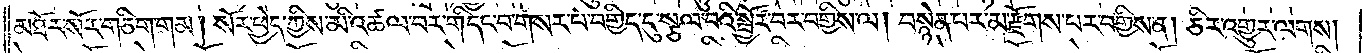མཐོར་སོར་གཅིག་གམ། སོར་ཕྱེད་ཀྱིས་མི་འཚལ་བར་གདིང་བ་གསར་པ་བགྱིད་དུ་སྩལ་བའི་སྦྱོར་བར་བགྱིས་ལ། བསྙེན་པར་མ་རྫོགས་པར་བགྱིས་ན། ཅིར་འགྱུར་ལགས།
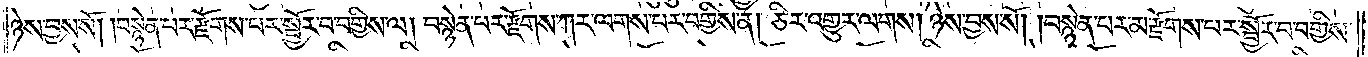ཉེས་བྱས་སོ། །བསྙེན་པར་རྫོགས་པར་སྦྱོར་བ་བགྱིས་ལ། བསྙེན་པར་རྫོགས་ཀར་ལགས་པར་བགྱིས་ན། ཅིར་འགྱུར་ལགས། ཉེས་བྱས་སོ། །བསྙེན་པར་མ་རྫོགས་པར་སྦྱོར་བ་བགྱིས་
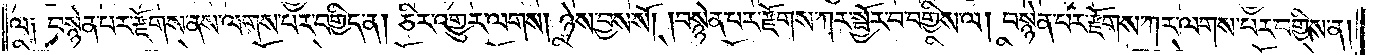ལ༑ བསྙེན་པར་རྫོགས་ནས་ལགས་པར་བགྱིད་ན། ཅིར་འགྱུར་ལགས། ཉེས་བྱས་སོ། །བསྙེན་པར་རྫོགས་ཀར་སྦྱོར་བ་བགྱིས་ལ། བསྙེན་པར་རྫོགས་ཀར་ལགས་པར་བགྱིས་ན།
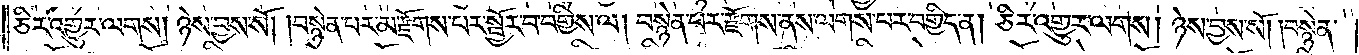ཅིར་འགྱུར་ལགས། ཉེས་བྱས་སོ། །བསྙེན་པར་མ་རྫོགས་པར་སྦྱོར་བ་བགྱིས་ལ། བསྙེན་པར་རྫོགས་ནས་ལགས་པར་བགྱིད་ན། ཅིར་འགྱུར་ལགས། ཉེས་བྱས་སོ། །བསྙེན་
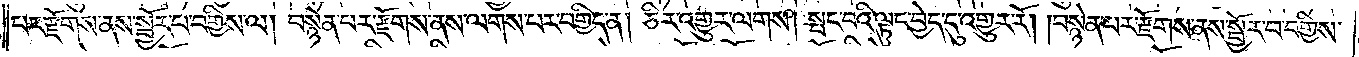པར་རྫོགས་ནས་སྦྱོར་པ་བགྱིས་ལ། བསྙེན་པར་རྫོགས་ནས་ལགས་པར་བགྱིད་ན། ཅིར་འགྱུར་ལགས། སྤང་བའི་ལྟུང་བྱེད་དུ་འགྱུར་རོ། །བསྙེན་པར་རྫོགས་ནས་སྦྱོར་བ་བགྱིས་
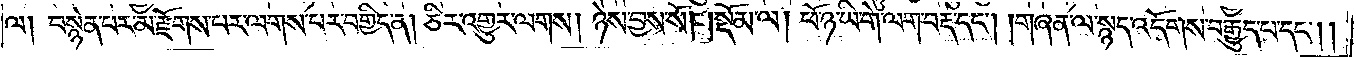ལ། བསྙེན་པར་མ་རྫོགས་པར་ལགས་པར་བགྱིད་ན། ཅིར་འགྱུར་ལགས། ཉེས་བྱས་སོ། །སྡོམ་ལ། ཕོ་ཉ་ཡི་གེ་ལག་བརྡ་དང༌། །གཞན་ལ་སྙད་འདོགས་བརྒྱུད་པ་དང༌། །
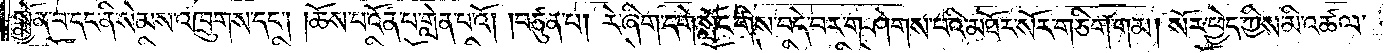སྨྱོན་པ་དང་ནི་སེམས་འཁྲུགས་དང༌། །ཆོས་པ་འོན་པ་གླེན་པའོ། །བཙུན་པ། རེ་ཞིག་དགེ་སློང་གིས་བདེ་བར་གཤེགས་པའི་མཐོར་སོར་གཅིག་གམ། སོར་ཕྱེད་ཀྱིས་མི་འཚལ་
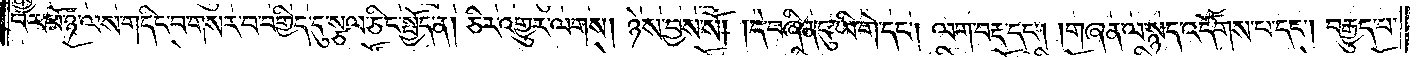པར་ཕོ་ཉ་ལས་གདིང་བ་གསར་པ་བགྱིད་དུ་སྩལ་ཅིང་སྤྱོད་ན། ཅིར་འགྱུར་ལགས། ཉེས་བྱས་སོ། །དེ་བཞིན་དུ་ཡི་གེ་དང༌། ལག་བརྡ་དང༌། །གཞན་ལ་སྙད་འདོགས་པ་དང༌། བརྒྱུད་པ་
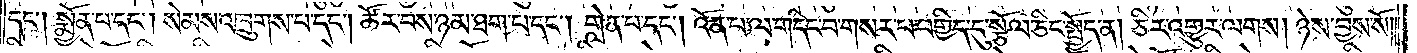དང༌། སྨྱོན་པ་དང༌། སེམས་འཁྲུགས་པ་དང༌། ཚོར་བས་ཉམ་ཐག་པ་དང༌། གླེན་པ་དང༌། འོན་པ་ལ་གདིང་པ་གསར་པ་བགྱིད་དུ་སྩོལ་ཅིང་སྤྱོད་ན། ཅིར་འགྱུར་ལགས། ཉེས་བྱས་སོ༎
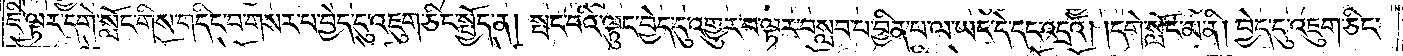ཇི་ལྟར་དགེ་སློང་གིས་གདིང་བ་གསར་པ་བྱེད་དུ་འཇུག་ཅིང་སྤྱོད་ན། སྤང་བའི་ལྟུང་བྱེད་དུ་འགྱུར་པ་ལྟར་བསླབ་པ་བྱིན་པ་ལ་ཡང་དེ་དང་འདྲའོ། །དགེ་སློང་མ་ནི། ཕྱེད་དུ་འཇུག་ཅིང་
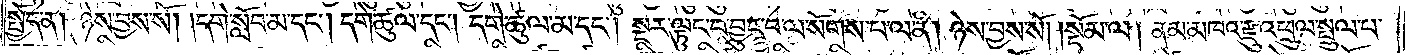སྤྱོད་ན། ཉེས་བྱས་སོ། །དགེ་སློང་མ་དང༌། དགེ་ཚུལ་དང༌། དགེ་ཚུལ་མ་དང༌། སྔར་ལྟུང་བ་བྱུང་བ་ལ་སོགས་པ་ལ་ནི། ཉེས་བྱས་སོ།    །སྡོམ་ལ། ནམ་མཁའ་རྫུ་འཕྲུལ་སྤྲུལ་པ་
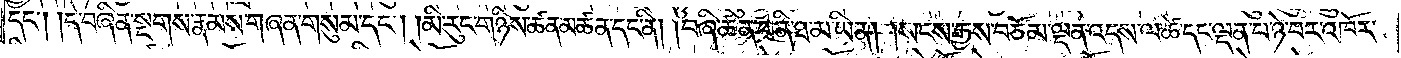དང༌། དེ་བཞིན་སྔགས་རྣམས་གཞན་གསུམ་དང༌། །མི་རུང་གཉིས་ཚན་མཚན་དང་ནི། །བཞི་ཚན་པ་ནི་ཐ་མ་ཡིན། །སངས་རྒྱས་བཅོམ་ལྡན་འདས་ལ་ཚེ་དང་ལྡན་པ་ཉེ་བར་འཁོར་
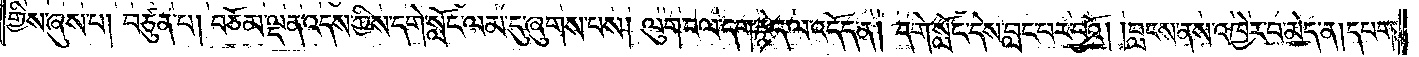གྱིས་ཞུས་པ། བཙུན་པ། བཅོམ་ལྡན་འདས་ཀྱིས་དགེ་སློང་ལམ་དུ་ཞུགས་པས། ལུག་བལ་དག་རྙེད་ལ་འདོད་ན། དགེ་སློང་དེས་བླང་པར་བྱའོ། །བླངས་ནས་འཁྱེར་བ་མེད་ན། དཔག་
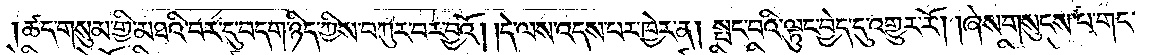།ཚད་གསུམ་གྱི་མཐའི་བར་དུ་བདག་ཉིད་ཀྱིས་བཀུར་བར་བྱའོ། །དེ་ལས་འདས་པར་ཁྱེར་ན། སྤང་བའི་ལྟུང་བྱེད་དུ་འགྱུར་རོ། །ཞེས་གསུངས་པ་གང་
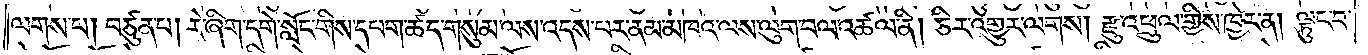ལགས་པ། བཙུན་པ། རེ་ཞིག་དགེ་སློང་གིས་དཔག་ཚད་གསུམ་ལས་འདས་པར་ནམ་མཁའ་ལས་ལུག་བལ་འཚལ་ནི། ཅིར་འགྱུར་ལགས། རྫུ་འཕྲུལ་གྱིས་ཁྱེར་ན། ལྟུང་བ་
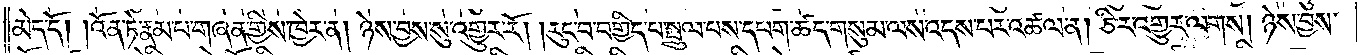མེད་དོ། །འོན་ཏེ་རྣམ་པ་གཞན་གྱིས་ཁྱེར་ན། ཉེས་བྱས་སུ་འགྱུར་རོ། །རུང་བ་བགྱིད་པ་སྤྲུལ་པས་དཔག་ཚད་གསུམ་ལས་འདས་པར་འཚལ་ན། ཅིར་འགྱུར་ལགས། ཉེས་བྱས་
